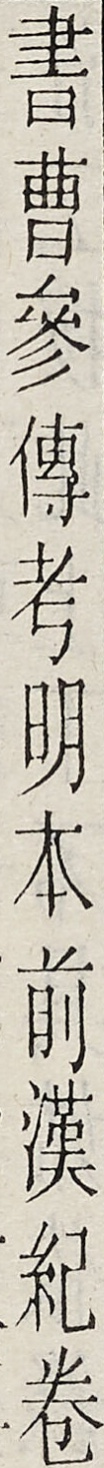書曹參傳考明本前漢紀卷
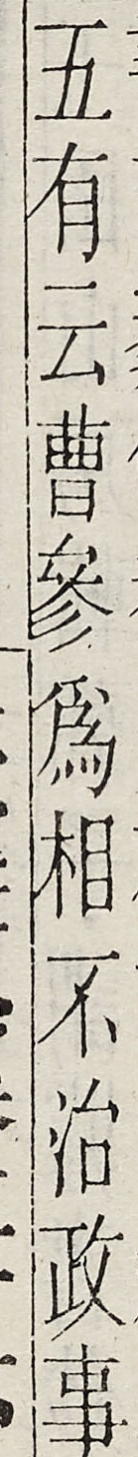五有云曹參為相不治政事
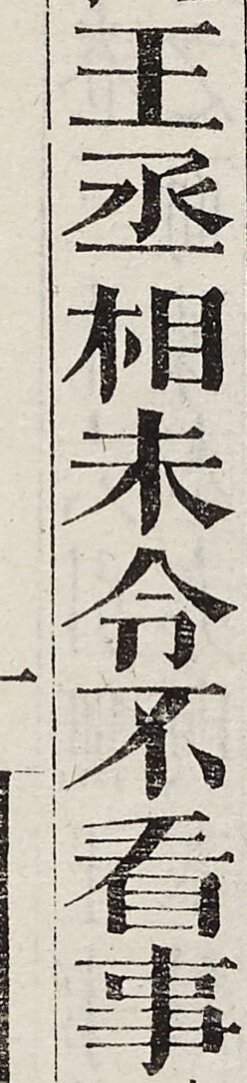王丞相未令不看事
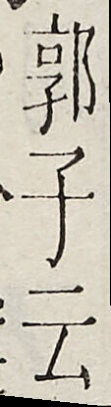郭子云
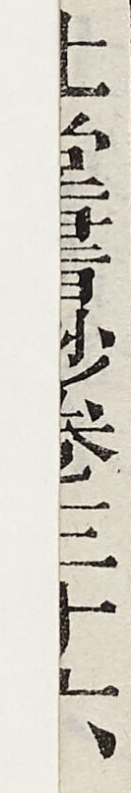北堂書鈔卷第三十六
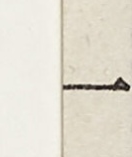一
